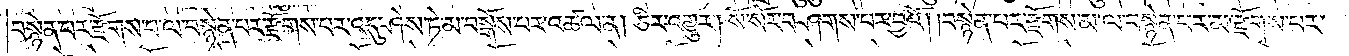བསྙེན་པར་རྫོགས་པ་ལ་བསྙེན་པར་རྫོགས་པར་འདུ་ཤེས་ཏེ་མ་བསྒོས་པར་འཚལ་ན། ཅིར་འགྱུར། སོ་སོར་བཤགས་པར་བྱའོ། །བསྙེན་པར་རྫོགས་མ་ལ་བསྙེན་པར་མ་རྫོགས་པར་
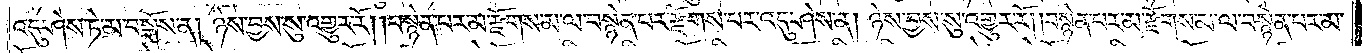འདུ་ཤེས་ཏེ་མ་བསྒོས་ན། ཉེས་བྱས་སུ་འགྱུར་རོ། །བསྙེན་པར་མ་རྫོགས་མ་ལ་བསྙེན་པར་རྫོགས་པར་འདུ་ཤེས་ན། ཉེས་བྱས་སུ་འགྱུར་རོ། །བསྙེན་པར་མ་རྫོགས་མ་ལ་བསྙེན་པར་མ་
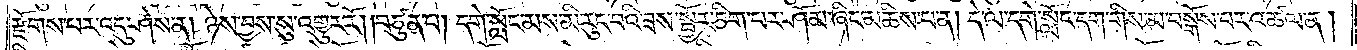རྫོགས་པར་འདུ་ཤེས་ན། ཉེས་བྱས་སུ་འགྱུར་རོ། །བཙུན་པ། དགེ་སློང་མས་མི་རུང་བའི་ཟས་སྦྱོར་ཅིག་པར་ཤོམ་ཞིང་མཆིས་པ་ན། དེ་ལ་དགེ་སློང་དག་གིས་མ་བསྒོས་པར་འཚལ་ན།
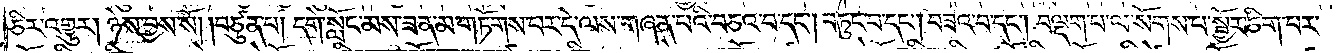ཅིར་འགྱུར། ཉེས་བྱས་སོ། །བཙུན་པ། དགེ་སློང་མས་ཟན་མ་གཏོགས་པར་དེ་ལས་གཞན་པའི་བཅའ་བ་དང༌། བཏུང་བ་དང༌། བཟའ་བ་དང༌། བལྡག་པ་ལ་སོགས་པ་སྦྱོར་ཅིག་པར་
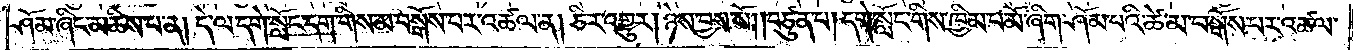ཤོམ་ཞིང་མཆིས་པ་ན། དེ་ལ་དགེ་སློང་དག་གིས་མ་བསྒོས་པར་འཚལ་ན། ཅིར་འགྱུར། ཉེས་བྱས་སོ། །བཙུན་པ། དགེ་སློང་གིས་ཁྱིམ་པ་མོ་ཞིག་ཤོམ་པའི་ཚེ་མ་བསྒོས་པར་འཚལ་
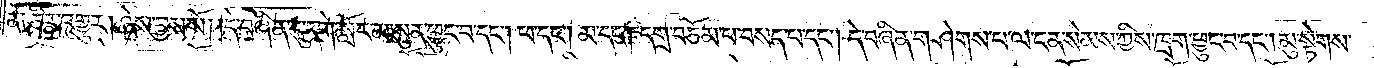ན༑ ཅིར་འགྱུར། ཉེས་བྱས་སོ། །དེ་བཞིན་དུ་དགེ་སློང་མ་སུན་ཕྱུང་བ་དང༌། ཕ་དང༌། མ་དང༌། དགྲ་བཅོམ་པ་བསད་པ་དང༌། དེ་བཞིན་གཤེགས་པ་ལ་ངན་སེམས་ཀྱིས་ཁྲག་ཕྱུང་བ་དང༌། མུ་སྟེགས་
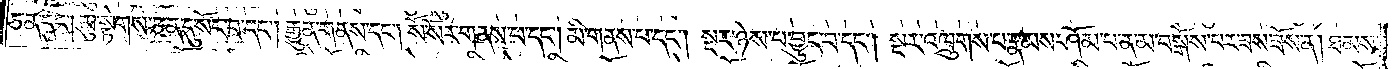ཅན་དང༌། མུ་སྟེགས་ཅན་དུ་སོང་བ་དང༌། རྒྱུན་གནས་དང༌། སོ་སོར་གནས་པ་དང༌། མི་གནས་པ་དང༌། སྔར་ཉེས་པ་བྱུང་བ་དང༌། སྔར་འཁྲུགས་པ་རྣམས་ཤོམ་པ་ན་མ་བསྒོས་པར་ཟས་ཟོས་ན། ཐམས་
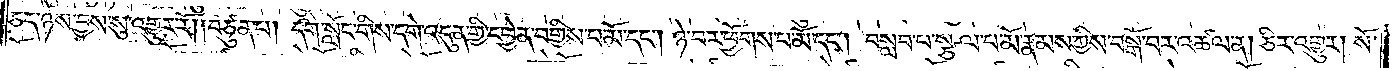ཅད་ཉེས་བྱས་སུ་འགྱུར་རོ། །བཙུན་པ། དགེ་སློང་གིས་དགེ་འདུན་གྱི་དབྱེན་བགྱིས་པ་མོ་དང༌། ཉེ་བར་ཕྱོགས་པ་མོ་དང༌། བསླབ་པ་སྩལ་པ་མོ་རྣམས་ཀྱིས་བསྒོ་བར་འཚལ་ན། ཅིར་འགྱུར། སོ་
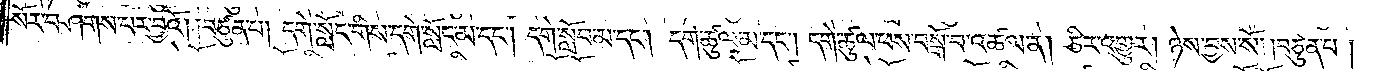སོར་བཤགས་པར་བྱའོ། །བཙུན་པ། དགེ་སློང་གིས་དགེ་སློང་མ་དང༌། དགེ་སློབ་མ་དང༌། དགེ་ཚུལ་མ་དང༌། དགེ་ཚུལ་ཕས་བསྒོ་བ་འཚལ་ན། ཅིར་འགྱུར། ཉེས་བྱས་སོ། །བཙུན་པ།
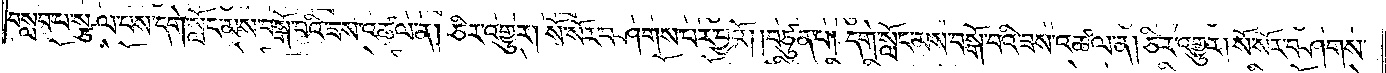བསླབ་པ་སྩལ་པས་དགེ་སློང་མས་བསྒོ་བའི་ཟས་འཚལ་ན། ཅིར་འགྱུར། སོ་སོར་བཤགས་པར་བྱའོ། །བཙུན་པ། དགེ་སློང་མས་བསྒོ་བའི་ཟས་འཚལ་ན། ཅིར་འགྱུར། སོ་སོར་བཤགས་
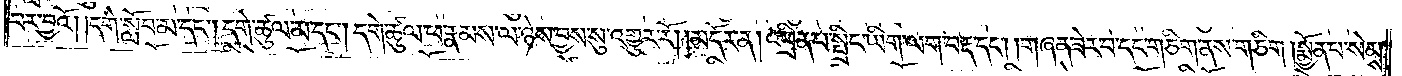པར་བྱའོ། །དགེ་སློབ་མ་དང༌། དགེ་ཚུལ་མ་དང༌། དགེ་ཚུལ་ཕ་རྣམས་ལ་ཉེས་བྱས་སུ་འགྱུར་རོ།    །མདོར་ན། འཕྲིན་པ་སྤྲིང་ཡིག་ལག་བརྡ་དང༌། །གཞན་ཟེར་བ་དང་གཅིག་ནས་གཅིག །སྨྱོན་པ་སེམས་
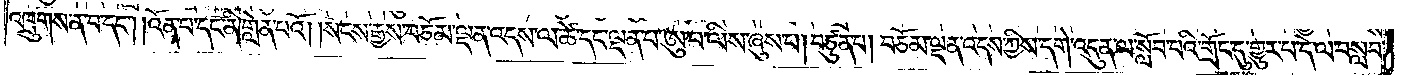འཁྲུགས་ན་བ་དང༌། །འོན་པ་དང་ནི་གླེན་པའོ། །སངས་རྒྱས་བཅོམ་ལྡན་འདས་ལ་ཚེ་དང་ལྡན་པ་ཨུ་པ་ལིས་ཞུས་པ། བཙུན་པ། བཅོམ་ལྡན་འདས་ཀྱིས་དགེ་འདུན་ལ་སློབ་པའི་གྲོང་དུ་གྱུར་པ་དེ་ལ་བསླབ་
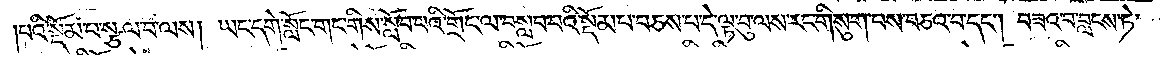།པའི་སྡོམ་པ་སྩལ་བ་ལས། ཡང་དགེ་སློང་གང་གིས་སློབ་པའི་གྲོང་ལ་བསླབ་པའི་སྡོམ་པ་བཅས་པ་དེ་ལྟ་བུ་ལས་རང་གི་སུག་པས་བཅའ་བ་དང༌། བཟའ་བ་བླངས་ཏེ་
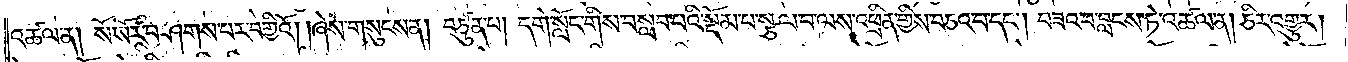འཚལ་ན། སོ་སོར་བཤགས་པར་བགྱིའོ། །ཞེས་གསུངས་ན། བཙུན་པ། དགེ་སློང་གིས་བསླབ་པའི་སྡོམ་པ་སྩལ་བ་ལས་འཕྲིན་གྱིས་བཅའ་བ་དང༌། བཟའ་བ་བླངས་ཏེ་འཚལ་ན། ཅིར་འགྱུར།
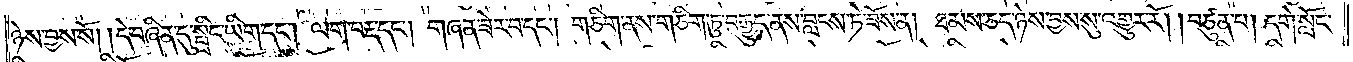ཉེས་བྱས་སོ། །དེ་བཞིན་དུ་སྤྲིང་ཡིག་དང༌། ལག་བརྡ་དང༌། གཞན་ཟེར་བ་དང༌། གཅིག་ནས་གཅིག་ཏུ་བརྒྱུད་ནས་བླངས་ཏེ་ཟོས་ན། ཐམས་ཅད་ཉེས་བྱས་སུ་འགྱུར་རོ། །བཙུན་པ། དགེ་སློང་
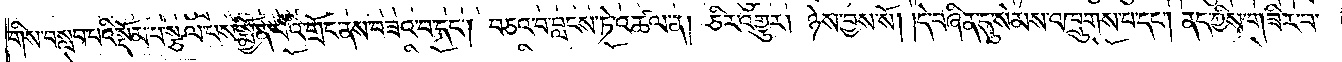གིས་བསླབ་པའི་སྡོམ་པ་སྩལ་པས་སྨྱོན་པའི་གྲོང་ནས་བཟའ་བ་དང༌། བཅའ་བ་བླངས་ཏེ་འཚལ་ན། ཅིར་འགྱུར། ཉེས་བྱས་སོ། །དེ་བཞིན་དུ་སེམས་འཁྲུགས་པ་དང༌། ནད་ཀྱིས་གཟིར་བ་
